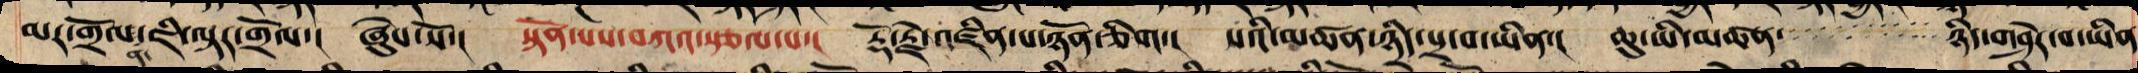མར་གྲོལ་ཇི་ལྟར་གྲོལ་། ཞེས་སོ་། སྟོན་པས་བཀའ་སྩལ་པ་། རྡོ་རྗེ་འཛིན་པ་ཉོན་ཅིག་། སའི་མཚན་ཉིད་སྲ་བ་ཡིན་། ཆུ་ཡི་མཚན་ ཉིད་གཤེར་བ་ཡིན
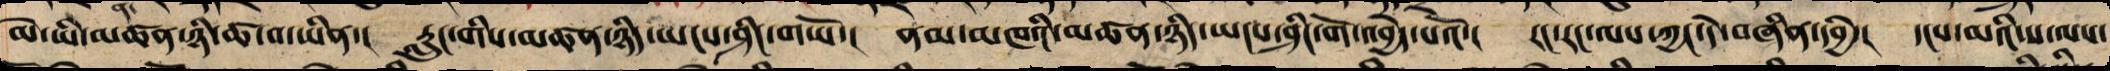མེ་ཡི་མཚན་ཉི་ཚ་བ་ཡིན་། རླུང་གིས་མཚན་ཉིད་ཡངས་ཤིང་གཡོ་། ནམ་མཁའི་མཚན་ཉིད་ཡངས་ཤིང་གོ་འབྱེད་པའོ་། རང་རང་ལས་ཀྱང་དེ་བཞིན་དབྱེ་། དངས་མའི་ས་ལས་
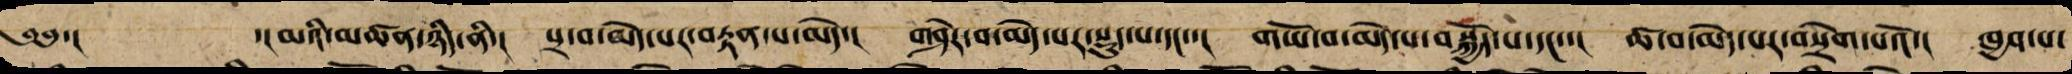༄༅་། ་། མའི་མཚན་ཉིད་ནི་། སྲ་བ་མེད་པར་བརྟན་པ་མེད་། གཤེར་བ་མེད་པར་སྡུད་པ་དང་་། གཡོ་བ་མེད་པ་བསྐྱོད་པ་དང་་། ཚ་བ་མེད་པར་བསྲེག་པའོ་། ཁྱབ་པ་
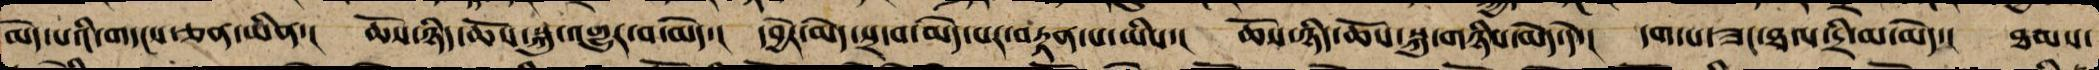མེད་པའི་གདངས་ཅན་ཡིན་། ཆོས་ཉིད་ཆོས་སྐུ་འགྱུར་བ་མེད་། དབྱེར་མེད་སྲ་བ་མེད་པར་བརྟན་ཡིས་། ཆོས་ཉིད་ཆོས་སྐུ་གཉིས་མེད་དེ་། དག་པ་ཟང་ཐལ་དྲི་མ་མེད་། ཐམས་
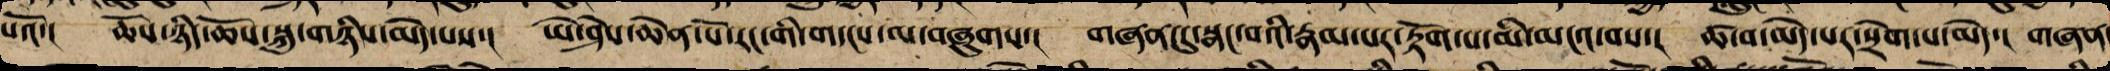པའོ་། ཆོས་ཉིད་ཆོས་སྐུ་གཉིས་མེད་པས་། ཡེ་ཤེས་ཆེན་པོ་རང་གི་གདངས་ལ་བཞུགས་། གཞན་དུ་སྣང་བའི་རྣམ་པར་རྟོག་པ་མི་མངའ་བས་། ཚ་བ་མེད་པར་བསྲེག་པ་མེད་། གཞན་
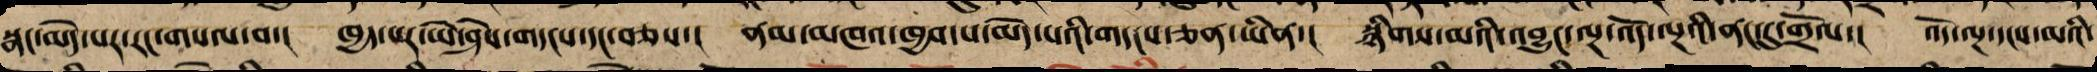སྣང་མེད་པར་རང་གསལ་བ་། ཁྱད་པར་ཡེ་ཤེས་གདངས་དང་བཅས་། ནམ་མཁའ་ཁྱབ་པ་མེད་པའི་གདངས་ཅན་ཡིན་། སྙིགས་མའི་འབྱུང་ལྔ་འོད་ལྔའི་ནང་དུ་གྲོལ་། འོད་ལྔ་དངས་མའི་
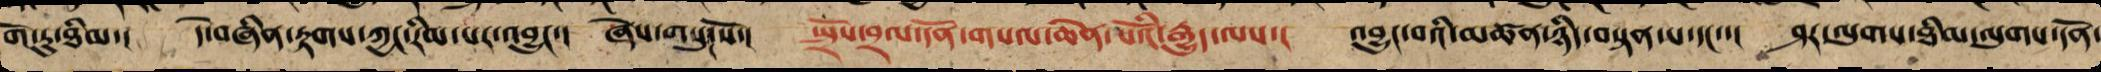གོ་རུ་ཐིམ་། དེ་བཞིན་རྟགས་ཀྱང་རིམ་པར་འབྱུང་། ཞེས་གསུངསོ་། སྤྲོས་བྲལ་དོན་གསལ་ཆེན་པོའི་རྒྱུད་ལས་། འབྱུང་བའི་མཚན་ཉིད་བསྟན་པ་དང་་། ཤར་ལུགས་ཐིམ་ལུགས་དོན་
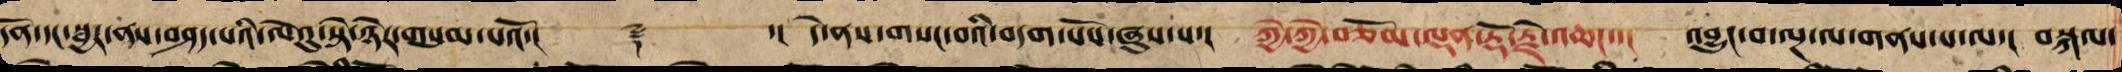དོན་དང་སྦྱར་ནས་བཤད་པའི་ལེའུ་སྟེ་ཉེར་གསུམ་པའོ་།། ༈ ་། དེ་ནས་གསང་བའི་བདག་པོས་ཞུས་པ་། ཀྱེ་ཀྱེ་བཅོམ་ལྡན་རྡོ་རྗེ་འཆང་་། འབྱུང་བ་ལྔ་ལ་གནས་པ་ལ་། བསྐལ་
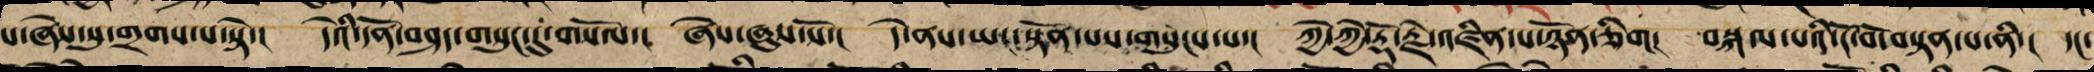པ་ཞེས་སུ་གྲགས་པ་སྟེ་། དེའི་དོན་བཤད་གསུང་དུ་གསོལ་། ཞེས་ཞུས་སོ་། དེ་ནས་ཡང་སྟོན་པས་གསུངས་པ་། ཀྱེ་ཀྱེ་རྡོ་རྗེ་འཛིན་པ་ཉོན་ཅིག། བསྐལ་པའི་ངོ་བོ་བསྟན་པ་ནི་། དང་
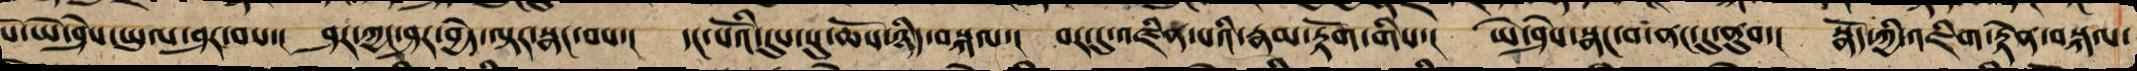པོ་ཡེ་ཤེས་ཡུལ་ཤར་བ་། ཤར་ཀྱང་ཤར་བྱེད་ལྟར་སྣང་བས་། དང་པོའི་དུས་སུ་ཆོས་ཉིད་བསྐལ་། བར་དུ་འཛིན་པའི་རྣམ་རྟོག་གིས་། ཡེ་ཤེས་སྣང་བ་ནང་དུ་ནུབ་། སྣོད་ཀྱི་འཇིག་རྟེན་བསྐལ་
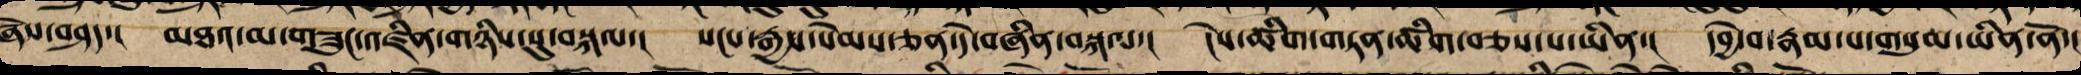ཞེས་བཤད་། མཐའ་མ་གཟུང་འཛིན་གཉིས་སུ་བསྐལ་། སངས་རྒྱས་སེམས་ཅན་དེ་བཞིན་བསྐལ་། ངེས་ཚིག་གཏན་ཚིག་བཅས་པ་ཡིན་། དབྱེ་བ་རྣམ་པ་གསུམ་ཡིན་ནོ་།
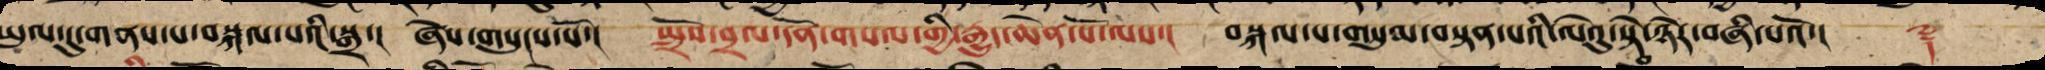ཡུན་དུ་གནས་པ་བསྐལ་པའི་སྒྲ་། ཞེས་གསུངས་སོ་། སྤྲོས་བྲལ་དོན་གསལ་གྱི་རྒྱུད་ཆེན་པོ་ལས་། བསྐལ་པ་གསུམབསྟན་པའི་ལེའུ་སྟེ་ཉེར་བཞི་པའོ་།། ༈
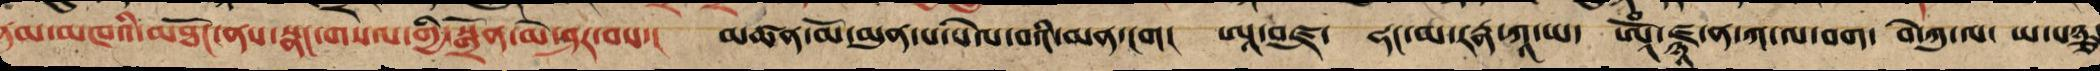ནམ་མཁའི་མཐོང་ནས་སྣང་གསལ་གྱི་སྒྲོན་མེ་ཤར་བས་། མཚན་མོ་མུན་པ་སེལ་བའི་མན་ངག། ཨཱ་བཛྲ་ ཧ་མ་རཏྣ་ཀཱ་ཡ་ ཨཱོཾ་ཛྙཱ་ན་ཀ་ལ་བག་ བེ་ཀུ་ལ་ ཡ་པཉྩ་
